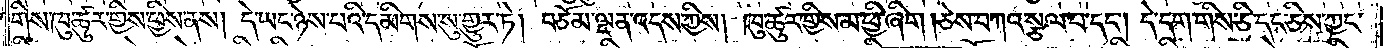གིས་ཁུ་ཚུར་གྱིས་ཕྱིས་ནས། དེ་ཡང་ཉེས་པའི་དམིགས་སུ་གྱུར་ཏེ། བཅོམ་ལྡན་འདས་ཀྱིས། ཁུ་ཚུར་གྱིས་མ་ཕྱི་ཞིག །ཅེས་བཀའ་སྩལ་པ་དང༌། དེ་དག་གིས་ཅི་དང་ཅིས་ཀྱང་
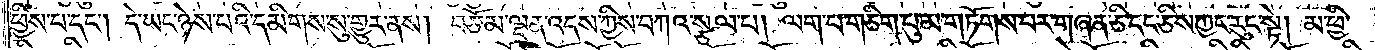ཕྱིས་པ་དང༌། དེ་ཡང་ཉེས་པའི་དམིགས་སུ་གྱུར་ནས། བཅོམ་ལྡན་འདས་ཀྱིས་བཀའ་སྩལ་པ། ལག་པ་གཅིག་པུ་མ་གཏོགས་པར་གཞན་ཅི་དང་ཅིས་ཀྱང་རུང་སྟེ། མ་ཕྱི་
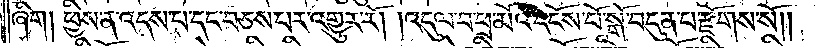ཞིག། ཕྱིས་ན་འདས་པ་དང་བཅས་པར་འགྱུར་རོ། །འདུལ་བ་ཕྲ་མོའི་དངོས་པོ་སྒོ་བདུན་པ་རྫོགས་སོ༎
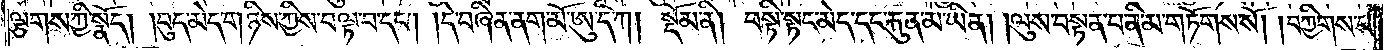ལྕགས་ཀྱི་སྣོད། །བུད་མེད་གཉིས་ཀྱིས་བལྟ་བ་དང༌། །དེ་བཞིན་ནག་མོ་ཨུ་དི་ཀ    །སྡོམ་ནི། བསྟི་སྟང་མེད་དང་རྐུན་མ་ཡིན། །ལུས་བསྟན་པ་ནི་མ་གཏོགས་སོ། །བཀྱིགས་པ་
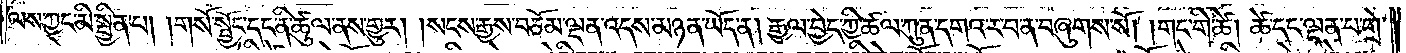ལས་ཀྱང་མི་སྦྱིན་པ། །གསོ་སྦྱོང་དང་ནི་ཚུལ་ནས་གྱུར། །སངས་རྒྱས་བཅོམ་ལྡན་འདས་མཉན་ཡོད་ན། རྒྱལ་བྱེད་ཀྱི་ཚལ་ཀུན་དགའ་ར་བ་ན་བཞུགས་སོ། །གང་གི་ཚེ། ཚེ་དང་ལྡན་པ་གྲེ་
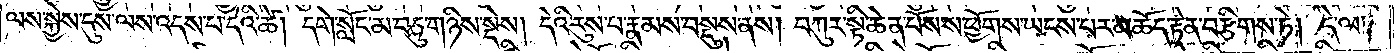ལས་སྐྱེས་དུས་ལས་འདས་པ་དེའི་ཚེ། དགེ་སློང་མ་བཅུ་གཉིས་སྡེས། དེའི་རུས་པ་རྣམས་བསྡུས་ནས། བཀུར་སྟི་ཆེན་པོས་ས་ཕྱོགས་ཡངས་པར་མཆོད་རྟེན་བརྩིགས་ཏེ། དེ་ལ་
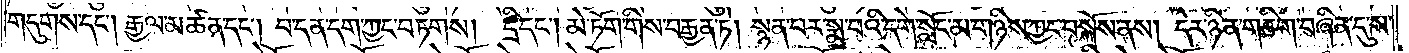གདུགས་དང༌། རྒྱལ་མཚན་དང༌། བ་དན་དག་ཀྱང་བཏགས། དྲི་དང༌། མེ་ཏོག་གིས་བརྒྱན་ཏེ། སྙམ་པར་སྨྲ་བའི་དགེ་སློང་མ་གཉིས་ཀྱང་བསྐོས་ནས། དེར་ཉིན་གཅིག་བཞིན་དུ་ས་
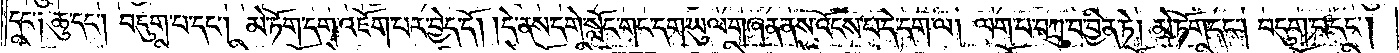དང་༑ ཆུ་དང༌། བདུག་པ་དང༌། མེ་ཏོག་དག་འཇོག་པར་བྱེད་དོ། །དེ་ནས་དགེ་སློང་གང་དག་ཡུལ་གཞན་ནས་འོངས་པ་དེ་དག་ལ། ལག་པ་བཀྲུ་བ་བྱིན་ཏེ། མེ་ཏོག་དང༌། བདུག་པ་དང༌།
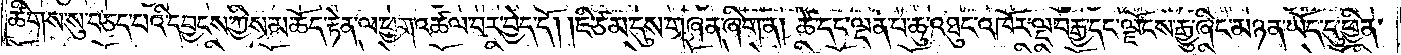ཚིགས་སུ་བཅད་པའི་དབྱངས་ཀྱིས་མཆོད་རྟེན་ལ་ཕྱག་འཚལ་བར་བྱེད་དོ། །ཇི་ཙམ་དུས་གཞན་ཞིག་ན། ཚེ་དང་ལྡན་པ་ཆུ་འཐུང་འཁོར་ལྔ་བརྒྱ་དང་ལྗོངས་རྒྱུ་ཞིང་མཉན་ཡོད་དུ་ཕྱིན་
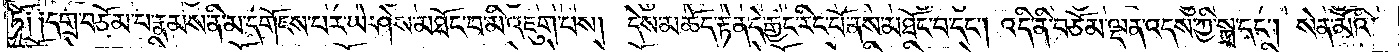ཏོ༑ ༑དགྲ་བཅོམ་པ་རྣམས་ནི་མ་དགོངས་པར་ཡེ་ཤེས་མཐོང་བ་མི་འཇུག་པས། དེས་མཆོད་རྟེན་དེ་རྒྱང་རིང་པོ་ནས་མཐོང་བ་དང༌། འདི་ནི་བཅོམ་ལྡན་འདས་ཀྱི་སྐྲ་དང༌། སེན་མོའི་
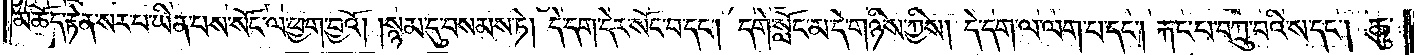མཆོད་རྟེན་སར་པ་ཡིན་པས་སོང་ལ་ཕྱག་བྱའོ། །སྙམ་དུ་བསམས་ཏེ། དེ་དག་དེར་སོང་བ་དང༌། དགེ་སློང་མ་དེ་གཉིས་ཀྱིས། དེ་དག་ལ་ལག་པ་དང༌། རྐང་པ་བཀྲུ་བའི་ས་དང༌། ཆུ་
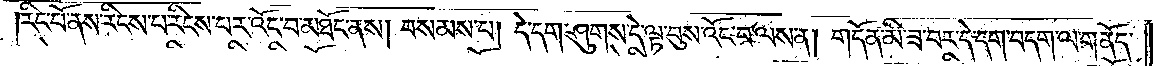རིང་པོནས་རིངས་པ་རིངས་པར་འོང་བ་མཐོང་ནས། བསམས་པ། དེ་དག་ཤུགས་དེ་ལྟ་བུས་འོང་བ་ལས་ན། གདོན་མི་ཟ་བར་དེ་དག་བདག་ལ་གནོད་
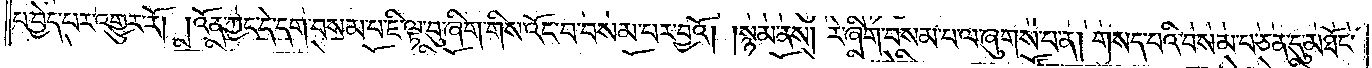པ་བྱེད་པར་འགྱུར་རོ། །འོན་ཀྱང་དེ་དག་བསམ་པ་ཇི་ལྟ་བུ་ཞིག་གིས་འོང་བ་བསམ་པར་བྱའོ། །སྙམ་ནས། རེ་ཞིག་བསམ་པ་ལ་ཞུགས་པ་ན། གསད་པའི་བསམ་པ་ཅན་དུ་མཐོང་
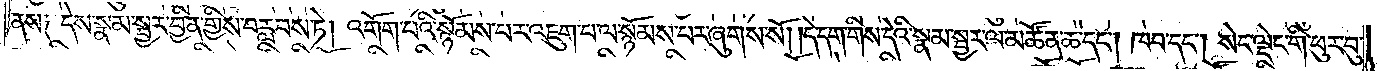ནས༑ དེས་སྣམ་སྦྱར་བྱིན་གྱིས་བརླབས་ཏེ། འགོག་པའི་སྙོམས་པར་འཇུག་པ་ལ་སྙོམས་པར་ཞུགས་སོ། །དེ་དག་གིས་དེའི་སྣམ་སྦྱར་ལ་མཚོན་ཆ་དང༌། ཁབ་དང༌། སེང་ལྡེང་གི་ཕུར་བུ་
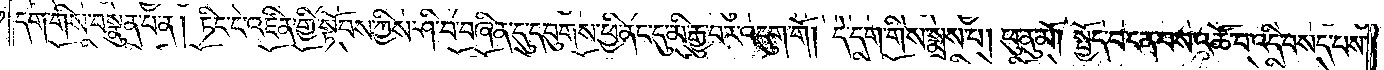དག་གིས་བསྣུན་པ་ན། ཏིང་ངེ་འཛིན་གྱི་སྟོབས་ཀྱིས་ཤི་བ་བཞིན་དུ་དབུགས་ཕྱི་ནང་དུ་མི་རྒྱུ་བར་འདུག་གོ། དེ་དག་གིས་སྨྲས་པ། ཕུ་ནུ་མོ། སྤྱོད་པ་ངན་པས་འཚོ་བ་འདི་བསད་པས་
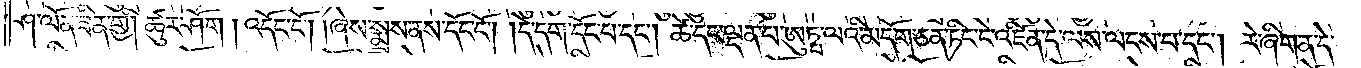ཤ་ལོན་ཟིན་གྱི། ཚུར་ཤོག །འདོང་ངོ༌། །ཞེས་སྨྲས་ནས་དོང་ངོ༌། །དེ་དག་དོང་པ་དང༌། ཚེ་དང་ལྡན་པ་ཨུཏྤ་ལའི་མདོག་ཅན་ཏིང་ངེ་འཛིན་དེ་ལས་ལངས་པ་དང༌། རེ་ཞིག་ན་དེ་
